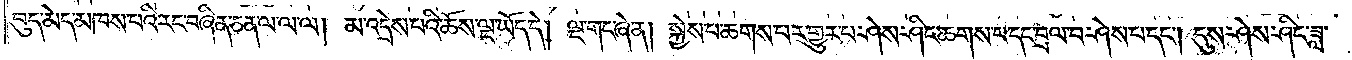བུད་མེད་མཁས་པའི་རང་བཞིན་ཅན་ལ་ལ་ལ། མ་འདྲེས་པའི་ཆོས་ལྔ་ཡོད་དེ། ལྔ་གང་ཞེ་ན། སྐྱེས་པ་ཆགས་པར་གྱུར་པ་ཤེས་ཤིང་ཆགས་པ་དང་བྲལ་པ་ཤེས་པ་དང༌། དུས་ཤེས་ཤིང་ཟླ་
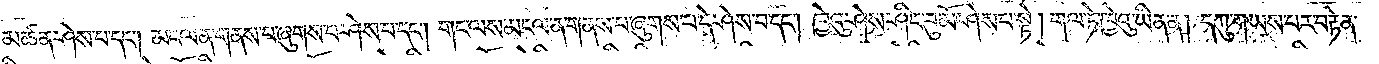མཚན་ཤེས་པ་དང༌། མངལ་ན་གནས་པ་ཞུགས་པ་ཤེས་པ་དང༌། གང་ལས་མངལ་ན་གནས་པ་ཞུགས་པ་དེ་ཤེས་པ་དང༌། ཁྱེའུ་ཤེས་ཤིང་བུ་མོ་ཤེས་པ་སྟེ། གལ་ཏེ་ཁྱེའུ་ཡིན་ན། དཀུ་གཡས་པར་བརྟེན་
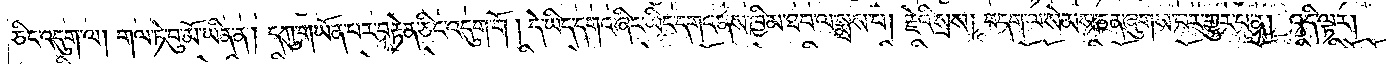ཅིང་འདུག་ལ། གལ་ཏེ་བུ་མོ་ཡིན་ན། དཀུ་གཡོན་པར་བརྟེན་ཅིང་འདུག་གོ །དེ་ཡིད་དགའ་ཞིང་ཡིད་དགའ་ནས་ཁྱིམ་ཐབ་ལ་སྨྲས་པ། རྗེའི་སྲས། བདག་ལ་སེམས་ཅན་ཞུགས་པར་གྱུར་པ་ན། འདི་ལྟར།
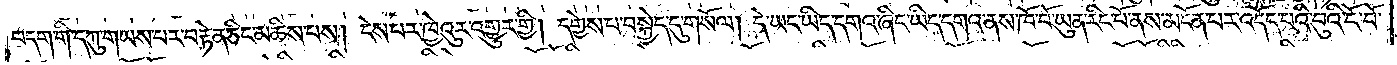བདག་གི་དཀུ་གཡས་པར་བརྟེན་ཅིང་མཆིས་པས། ངེས་པར་ཁྱེའུར་འགྱུར་གྱི། དགྱེས་པ་བསྐྱེད་དུ་གསོལ། དེ་ཡང་ཡིད་དགའ་ཞིང་ཡིད་དགའ་ནས་ཁོ་བོ་ཡུན་རིང་པོ་ནས་མངོན་པར་འདོད་པའི་བུའི་ངོ་བོ་
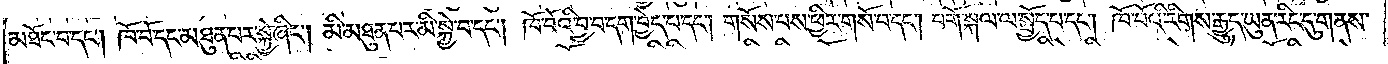མཐོང་བ་དང༌། ཁོ་བོ་དང་མཐུན་པར་སྐྱེ་ཞིང༌། མི་མཐུན་པར་མི་སྐྱེ་བ་དང༌། ཁོ་བོའི་བྱ་བ་དག་བྱེད་པ་དང༌། གསོས་པས་ཕྱིར་གསོ་བ་དང༌། བགོ་སྐལ་ལ་སྤྱོད་པ་དང༌། ཁོ་བོའི་རིགས་རྒྱུད་ཡུན་རིང་དུ་གནས་
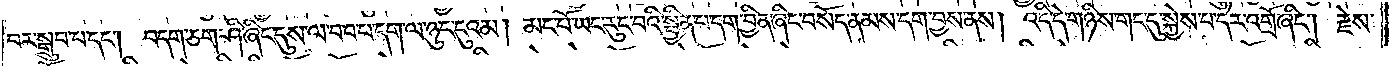བར་སྒྲུབ་པ་དང༌། བདག་ཅག་ཤི་ཞིང་དུས་ལ་བབ་པ་དག་ལ་ཉུང་ངུའམ། མང་པོ་ཡང་རུང་བའི་སྦྱིན་པ་དག་བྱིན་ཞིང་བསོད་ནམས་དག་བྱས་ནས། འདི་དེ་གཉིས་གང་དུ་སྐྱེས་པ་དེར་འགྲོ་ཞིང༌། རྗེས་
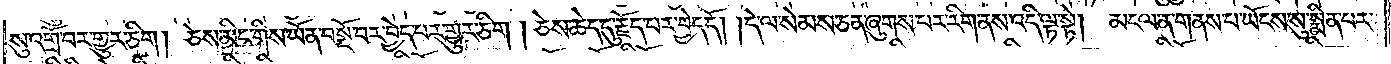སུ་འགྲོ་བར་གྱུར་ཅིག །ཅེས་མིང་གིས་ཡོན་བསྔོ་བར་བྱེད་པར་གྱུར་ཅིག །ཅེས་ཆེད་དུ་རྗོད་པར་བྱེད་དོ། །དེ་ལ་སེམས་ཅན་ཞུགས་པར་རིག་ནས་འདི་ལྟ་སྟེ། མངལ་ན་གནས་པ་ཡོངས་སུ་སྨིན་པར་
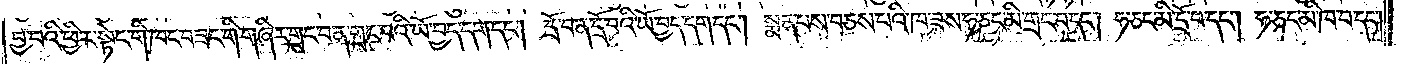བྱ་བའི་ཕྱིར་སྟེང་གི་ཁང་བཟང་གི་གཞིར་གྲང་བ་ན་གྲང་བའི་ཡོ་བྱད་དག་དང༌། དྲོ་བ་ན་དྲོ་བའི་ཡོ་བྱད་དག་དང༌། སྨན་པས་བཅས་པའི་ཁ་ཟས་ཧ་ཅང་མི་གྲང་བ་དང༌། ཧ་ཅང་མི་དྲོ་བ་དང༌། ཧ་ཅང་མི་ཁ་བ་དང༌།
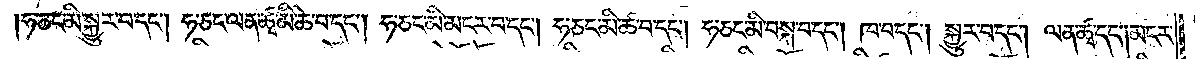ཧ་ཅང་མི་སྐྱུར་བ་དང༌། ཧ་ཅང་ལན་ཚྭ་མི་ཆེ་བ་དང༌། ཧ་ཅང་མི་མངར་བ་དང༌། ཧ་ཅང་མི་ཚ་བ་དང༌། ཧ་ཅང་མི་བསྐ་བ་དང༌། ཁ་བ་དང༌། སྐྱུར་བ་དང༌། ལན་ཚྭ་དང༌། མངར་
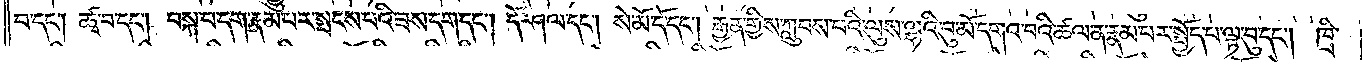བ་དང༌། ཚྭ་བ་དང༌། བསྐ་བ་དག་རྣམ་པར་སྤངས་པའི་ཟས་དག་དང༌། དོ་ཤལ་དང༌། སེ་མོ་དོ་དང༌། རྒྱན་གྱིས་ཀླུབས་པའི་ལུས་ལྷའི་བུ་མོ་དགའ་བའི་ཚལ་ན་རྣམ་པར་སྤྱོད་པ་ལྟ་བུ་དང༌། ཁྲི་
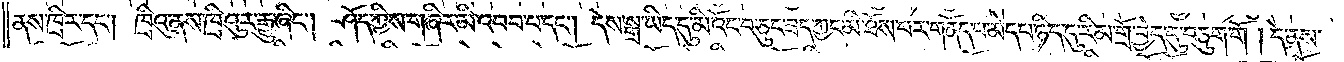ནས་ཁྲིར་དང༌། ཁྲིའུ་ནས་ཁྲིའུར་རྒྱུ་ཞིང༌། ཤོད་ཀྱི་ས་གཞིར་མི་འབབ་པ་དང༌། དེས་སྒྲ་ཡིད་དུ་མི་འོང་བ་ཅུང་ཟད་ཀྱང་མི་ཐོས་པར་གནོད་པ་མེད་པ་ཉིད་དུ་རིམ་གྲོ་བྱེད་དུ་བཅུག་གོ །དེ་ནས་
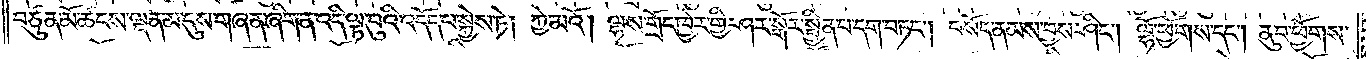བཙུན་མོ་ཚངས་ལྡན་མ་དུས་གཞན་ཞིག་ན་འདི་ལྟ་བུའི་འདོད་པ་སྐྱེས་ཏེ། ཀྱེ་མའོ། །ལྷས་གྲོང་ཁྱེར་གྱི་ཤར་སྒོར་སྦྱིན་པ་དག་བཏང༌། བསོད་ནམས་བྱས་ཤིང༌། ལྷོ་ཕྱོགས་དང༌། ནུབ་ཕྱོགས་
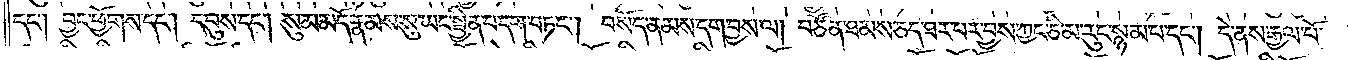དང༌། བྱང་ཕྱོགས་དང༌། དབུས་དང༌། སུམ་མདོ་རྣམས་སུ་ཡང་སྦྱིན་པ་དག་བཏང༌། བསོད་ནམས་དག་བྱས་ལ། བཙོན་ཐམས་ཅད་ཐར་པར་བྱས་ཀྱང་ཅི་མ་རུང་སྙམ་པ་དང༌། དེ་ནས་རྒྱལ་པོ་
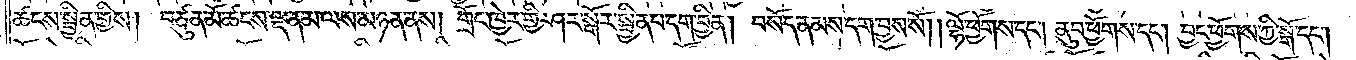ཚངས་སྦྱིན་གྱིས། བཙུན་མོ་ཚངས་ལྡན་མ་ལས་མཉན་ནས། གྲོང་ཁྱེར་གྱི་ཤར་སྒོར་སྦྱིན་པ་དག་བྱིན། བསོད་ནམས་དག་བྱས་སོ། །ལྷོ་ཕྱོགས་དང༌། ནུབ་ཕྱོགས་དང༌། བྱང་ཕྱོགས་ཀྱི་སྒོ་དང༌།
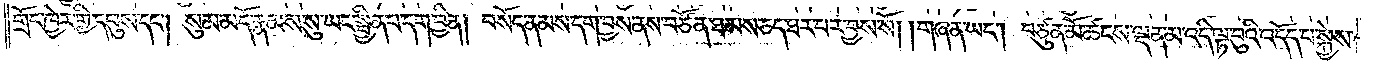གྲོང་ཁྱེར་གྱི་དབུས་དང༌། སུམ་མདོ་རྣམས་སུ་ཡང་སྦྱིན་པ་དག་བྱིན། བསོད་ནམས་དག་བྱས་ནས་བཙོན་ཐམས་ཅད་ཐར་པར་བྱས་སོ། །གཞན་ཡང༌། བཙུན་མོ་ཚངས་ལྡན་མ་འདི་ལྟ་བུའི་འདོད་པ་སྐྱེས་
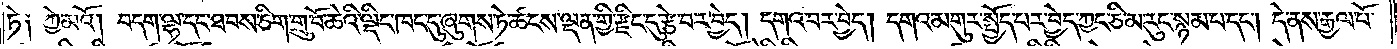ཏེ༑ ཀྱེ་མའོ། བདག་ལྷ་དང་ཐབས་ཅིག་གྲུ་བོ་ཆེའི་ལྡིང་ཁང་དུ་ཞུགས་ཏེ་ཚངས་ལྡན་གྱི་རྫིང་དུ་རྩེ་བར་བྱེད། དགའ་བར་བྱེད། དགའ་མགུར་སྤྱོད་པར་བྱེད་ཀྱང་ཅི་མ་རུང་སྙམ་པ་དང༌། དེ་ནས་རྒྱལ་པོ་
